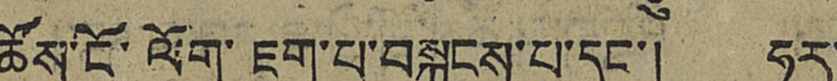ཚོས་ངོ་ལོག་ཇག་པ་བསྐུངས་པ་དང་། ཧུར་
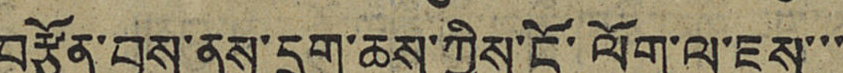བརྩོན་བྱས་ནས་དྲག་ཆས་ཀྱིས་ངོ་ལོག་ལ་ཇུས་་་
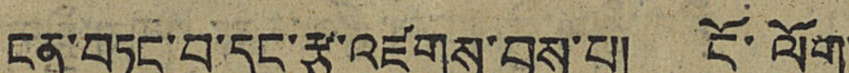ངན་བཏང་བ་དང་རྩ་འཛུགས་བྱས་པ། ངོ་ལོག་
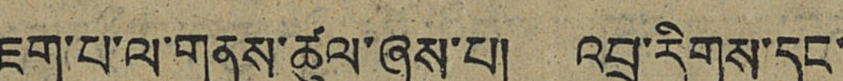ཇག་པ་ལ་གནས་ཚུལ་ཞུས་པ། འབྲུ་རིགས་དང་
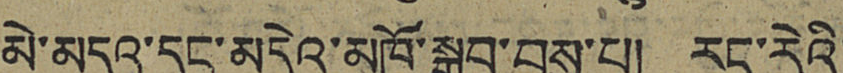མེ་མདའ་དང་མདེའུ་མཁོ་སྒྲུབ་བྱས་པ། རང་རེའི་
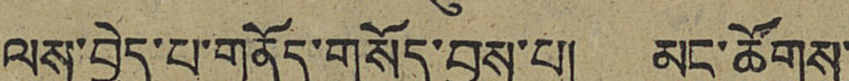ལས་བྱེད་པ་གནོད་གསོད་བྱས་པ། མང་ཚོགས་
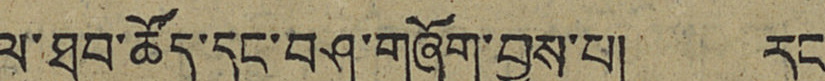ལ་ཐུབ་ཚོད་དང་བཤུ་གཞོག་བྱས་པ། རང་
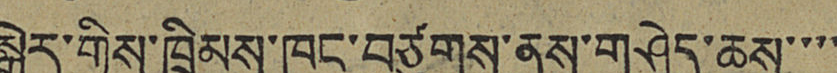སྒེར་གྱིས་ཁྲིམས་ཁང་བཙུགས་ནས་གཤེད་ཆས་་་་
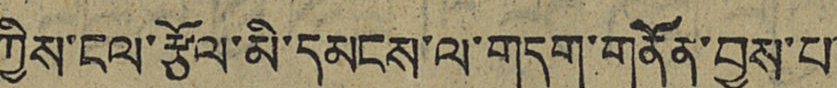ཀྱིས་ངལ་རྩོལ་མི་དམངས་ལ་གདུག་གནོན་བྱས་པ་
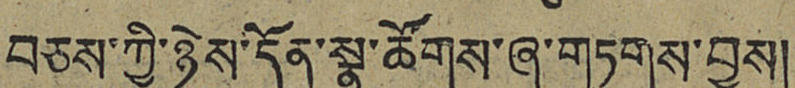བཅས་ཀྱི་ཉེས་དོན་སྣ་ཚོགས་ཞུ་གཏུགས་བྱས།
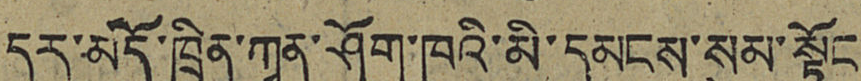དར་མདོ་ཁྲིན་ཀྭན་ཤོག་ཁའི་མི་དམངས་སུམ་སྟོང
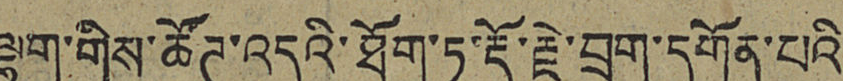ལྷག་གིས་ཚོཊ་འདུའི་ཐོག་ཏུ་རྡོ་རྗེ་བྲག་དགོན་པའི
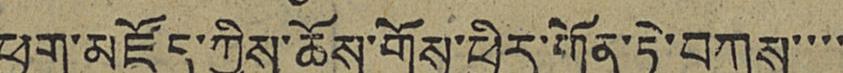ཕྱག་མཛོད་ཀྱིས་ཆོས་གོས་ཕྱིར་གོན་ཏེ་བཀས་་་་
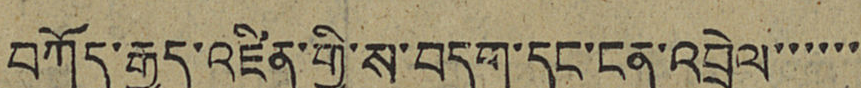བཀོད་རྒྱུད་འཛིན་གྱི་ས་བདག་དང་ངན་འབྲེལ་་་་་་
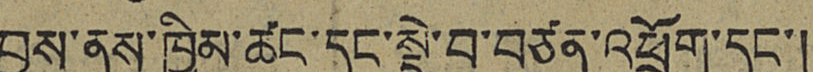བྱས་ནས་ཁྱིམ་ཚང་དང་སྡེ་བ་བཙན་འཕྲོག་དང་།
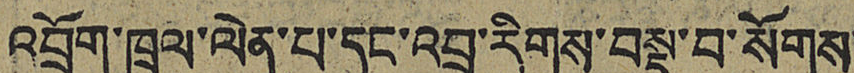འབྲོག་ཁྲལ་ལེན་པ་དང་འབྲུ་རིགས་བསྡུ་བ་སོགས་
